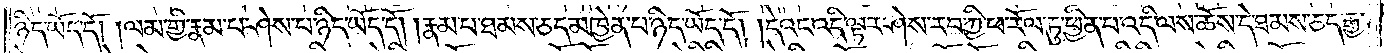ཉིད་ཡོད་དོ། །ལམ་གྱི་རྣམ་པར་ཤེས་པ་ཉིད་ཡོད་དོ། །རྣམ་པ་ཐམས་ཅད་མཁྱེན་པ་ཉིད་ཡོད་དོ། །དེའང་འདི་ལྟར་ཤེས་རབ་ཀྱི་ཕ་རོལ་ཏུ་ཕྱིན་པ་འདི་ལས་ཆོས་དེ་ཐམས་ཅད་རྒྱ་
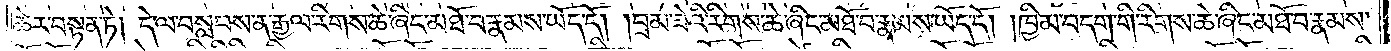ཆེར་བསྟན་ཏེ། དེ་ལ་བསླབས་ན་རྒྱལ་རིགས་ཆེ་ཞིང་མཐོ་བ་རྣམས་ཡོད་དོ། །བྲམ་ཟེའི་རིགས་ཆེ་ཞིང་མཐོ་བ་རྣམས་ཡོད་དོ། །ཁྱིམ་བདག་གི་རིགས་ཆེ་ཞིང་མཐོ་བ་རྣམས་
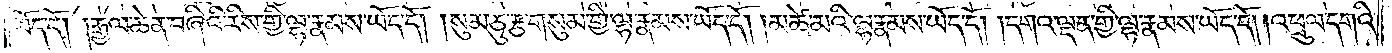ཡོད་དོ། །རྒྱལ་ཆེན་བཞིའི་རིས་ཀྱི་ལྷ་རྣམས་ཡོད་དོ། །སུམ་ཅུ་རྩ་གསུམ་གྱི་ལྷ་རྣམས་ཡོད་དོ། །མཚེ་མའི་ལྷ་རྣམས་ཡོད་དོ། །དགའ་ལྡན་གྱི་ལྷ་རྣམས་ཡོད་དོ། །འཕྲུལ་དགའི་
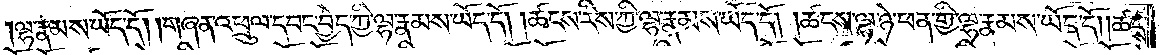ལྷ་རྣམས་ཡོད་དོ། །གཞན་འཕྲུལ་དབང་བྱེད་ཀྱི་ལྷ་རྣམས་ཡོད་དོ། །ཚངས་རིས་ཀྱི་ལྷ་རྣམས་ཡོད་དོ། །ཚངས་ལྷ་ཉེ་ཕན་གྱི་ལྷ་རྣམས་ཡོད་དོ། །ཚངས་
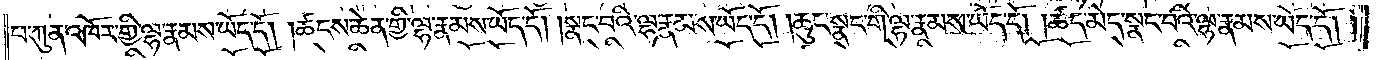པ་ཀུན་འཁོར་གྱི་ལྷ་རྣམས་ཡོད་དོ། །ཚངས་ཆེན་གྱི་ལྷ་རྣམས་ཡོད་དོ། །སྣང་བའི་ལྷ་རྣམས་ཡོད་དོ། །ཆུང་སྣང་གི་ལྷ་རྣམས་ཡོད་དོ། །ཚད་མེད་སྣང་བའི་ལྷ་རྣམས་ཡོད་དོ། །
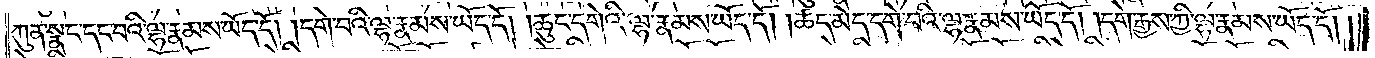ཀུན་སྣང་དང་བའི་ལྷ་རྣམས་ཡོད་དོ། །དགེ་བའི་ལྷ་རྣམས་ཡོད་དོ། །ཆུང་དགེའི་ལྷ་རྣམས་ཡོད་དོ། །ཚད་མེད་དགེ་བའི་ལྷ་རྣམས་ཡོད་དོ། །དགེ་རྒྱས་ཀྱི་ལྷ་རྣམས་ཡོད་དོ། །
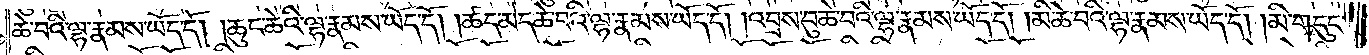ཆེ་བའི་ལྷ་རྣམས་ཡོད་དོ། །ཆུང་ཆེའི་ལྷ་རྣམས་ཡོད་དོ། །ཚད་མེད་ཆེ་བའི་ལྷ་རྣམས་ཡོད་དོ། །འབྲས་བུ་ཆེ་བའི་ལྷ་རྣམས་ཡོད་དོ། །མི་ཆེ་བའི་ལྷ་རྣམས་ཡོད་དོ། །མི་གདུང་
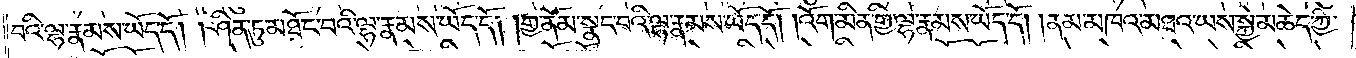བའི་ལྷ་རྣམས་ཡོད་དོ། །ཤིན་ཏུ་མཐོང་བའི་ལྷ་རྣམས་ཡོད་དོ། །གྱ་ནོམ་སྣང་བའི་ལྷ་རྣམས་ཡོད་དོ། །འོག་མིན་གྱི་ལྷ་རྣམས་ཡོད་དོ། །ནམ་མཁའ་མཐའ་ཡས་སྐྱེ་མཆེད་ཀྱི་
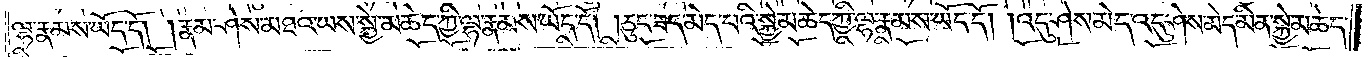ལྷ་རྣམས་ཡོད་དོ། །རྣམ་ཤེས་མཐའ་ཡས་སྐྱེ་མཆེད་ཀྱི་ལྷ་རྣམས་ཡོད་དོ། །ཅུང་ཟད་མེད་པའི་སྐྱེ་མཆེད་ཀྱི་ལྷ་རྣམས་ཡོད་དོ། །འདུ་ཤེས་མེད་འདུ་ཤེས་མེད་མིན་སྐྱེ་མཆེད་
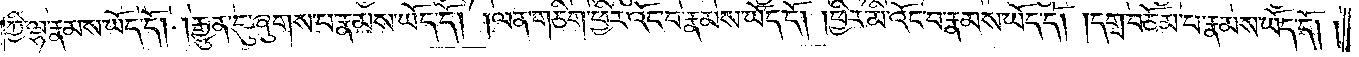ཀྱི་ལྷ་རྣམས་ཡོད་དོ། །རྒྱུན་དུ་ཞུགས་པ་རྣམས་ཡོད་དོ། །ལན་གཅིག་ཕྱིར་འོང་བ་རྣམས་ཡོད་དོ། །ཕྱིར་མི་འོང་བ་རྣམས་ཡོད་དོ། །དགྲ་བཅོམ་པ་རྣམས་ཡོད་དོ། །
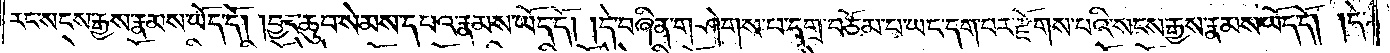རང་སངས་རྒྱས་རྣམས་ཡོད་དོ། །བྱང་ཆུབ་སེམས་དཔའ་རྣམས་ཡོད་དོ། །དེ་བཞིན་གཤེགས་པ་དགྲ་བཅོམ་པ་ཡང་དག་པར་རྫོགས་པའི་སངས་རྒྱས་རྣམས་ཡོད་དོ། །དེ་
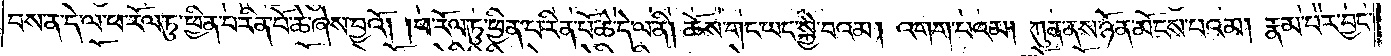བས་ན་དེ་ལ་ཕ་རོལ་ཏུ་ཕྱིན་པ་རིན་པོ་ཆེ་ཞེས་བྱའོ། །ཕ་རོལ་ཏུ་ཕྱིན་པ་རིན་པོ་ཆེ་དེ་ལ་ནི། ཆོས་གང་ཡང་སྐྱེ་བའམ། འགག་པའམ། ཀུན་ནས་ཉོན་མོངས་པའམ། རྣམ་པར་བྱང་
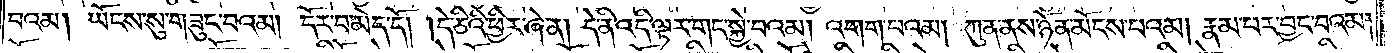བའམ། ཡོངས་སུ་གཟུང་བའམ། དོར་བ་མེད་དོ། །དེ་ཅིའི་ཕྱིར་ཞེ་ན། དེ་ནི་འདི་ལྟར་གང་སྐྱེ་བའམ། འགག་པའམ། ཀུན་ནས་ཉོན་མོངས་པའམ། རྣམ་པར་བྱང་བའམ།
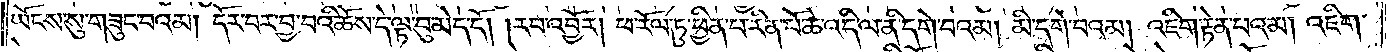ཡོངས་སུ་གཟུང་བའམ། དོར་བར་བྱ་བའི་ཆོས་དེ་ལྟ་བུ་མེད་དོ། །རབ་འབྱོར། ཕ་རོལ་ཏུ་ཕྱིན་པ་རིན་པོ་ཆེ་འདི་ལ་ནི་དགེ་བའམ། མི་དགེ་བའམ། འཇིགས་རྟེན་པའམ། འཇིག་
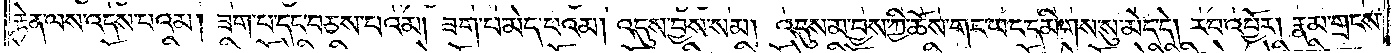རྟེན་ལས་འདས་པའམ། ཟག་པ་དང་བཅས་པའམ། ཟག་པ་མེད་པའམ། འདུས་བྱས་སམ། འདུས་མ་བྱས་ཀྱི་ཆོས་གང་ཡང་དམིགས་སུ་མེད་དེ། རབ་འབྱོར། རྣམ་གྲངས་
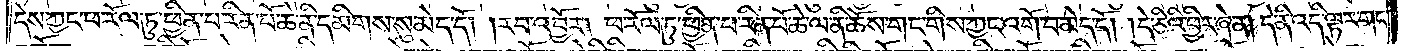དེས་ཀྱང་ཕ་རོལ་ཏུ་ཕྱིན་པ་རིན་པོ་ཆེ་ནི་དམིགས་སུ་མེད་དོ། །རབ་འབྱོར། ཕ་རོལ་ཏུ་ཕྱིན་པ་རིན་པོ་ཆེ་ལ་ནི་ཆོས་གང་གིས་ཀྱང་འགོ་བ་མེད་དོ། །དེ་ཅིའི་ཕྱིར་ཞེ་ན། དེ་ནི་འདི་ལྟར་གང་
